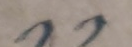༡༡
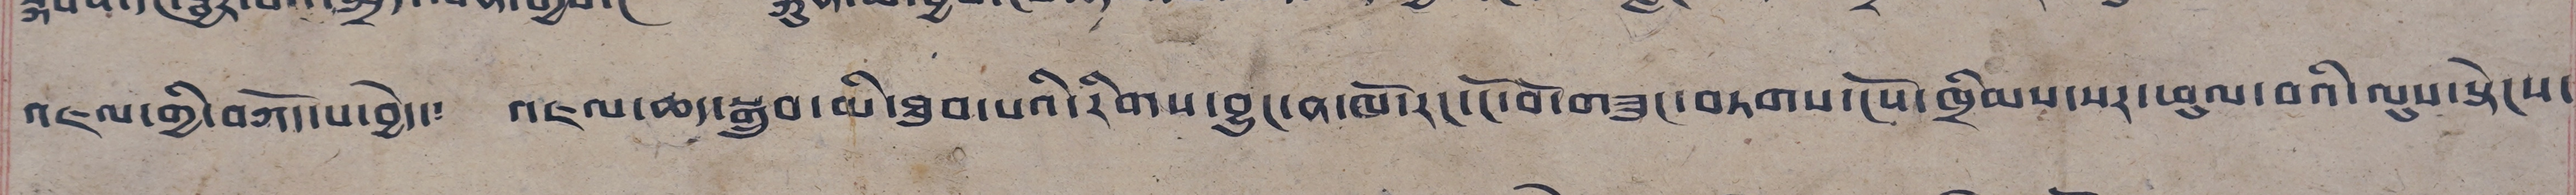འཇལ་གྱི་བཀོད་པ་བྱེད་༴ འཇལ་ཆད་སྒྲུབ་མི་ཐབ་པའི་རིགས་བྱུང་ན་ཁོ་རང་ངོ་བོ་གཟུང་བཏགས་ངོས་ཁྲིམས་སར་ཕུལ་བའི་ལུས་སྟེངས་
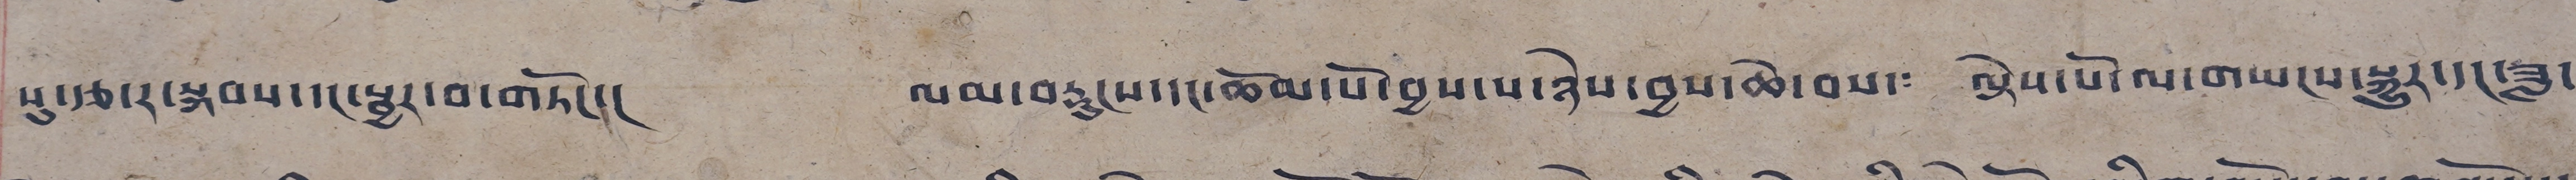སུ་རྩ་ར་སྐབས་དང་སྦྱར་བ་གཏོང་། ལམ་བརྡུངས་དང་ཆོམ་པོ་བྱས་པ་ཉེས་བྱས་ཆེ་བས་༴ ལྟེས་པོ་ལ་གཡངས་སྐྱུར་དང་ཟླ་
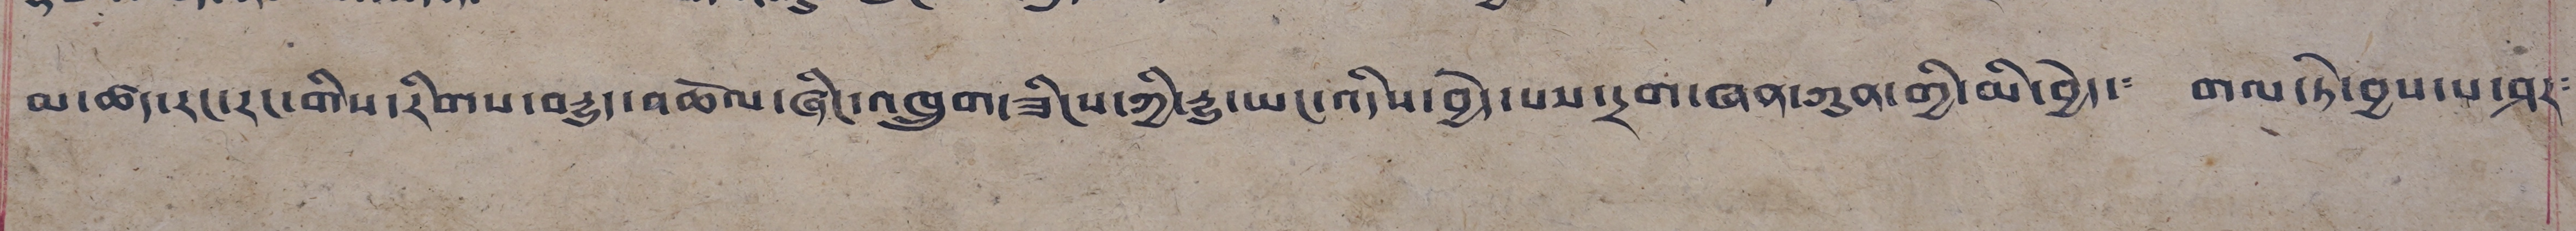མ་ཚད་རང་རང་གིས་རིགས་བརྒྱུད་འཆོལ་ཞིང་འཁྲུག་ཟིངས་ཀྱི་རྒྱུ་ཡང་འདིས་བྱེད་པས་དྲག་ཞན་ཀུན་གྱི་མི་བྱེད་༴ གལ་ཏེ་བྱས་པ་ཤར༴
